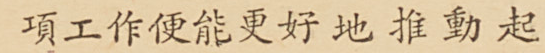項工作便能更好地推動起
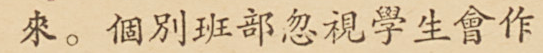來。個別班部忽視學生會作
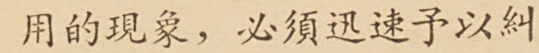用的現象，必須迅速予以糾
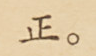正。
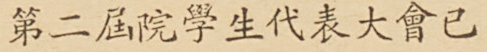第二屆院學生代表大會已
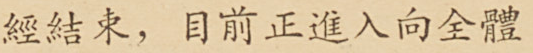經結束，目前正進入向全體
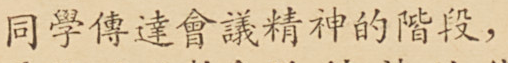同學傳達會議精神的階段，
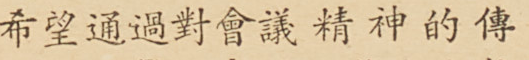希望通過對會議精神的傳
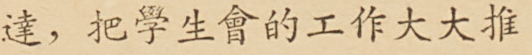達，把學生會的工作大大推
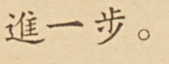進一步。
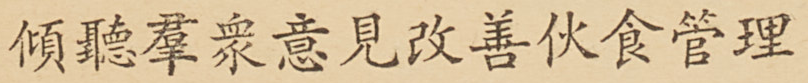傾聽羣衆意見改善伙食管理
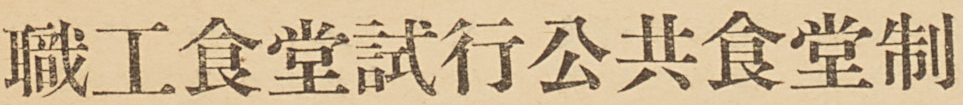職工食堂試行公共食堂制
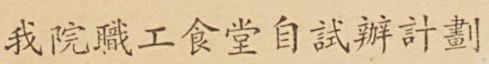我院職工食堂自試辦計劃
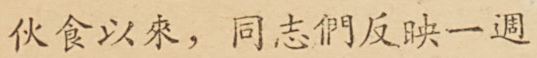伙食以來，同志們反映一週
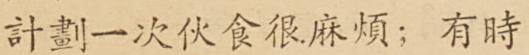計劃一次伙食很麻煩；有時
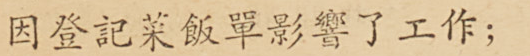因登記菜飯單影響了工作；
